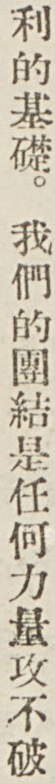利的基礎。我們的團結是任何力量攻不破
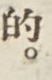的。
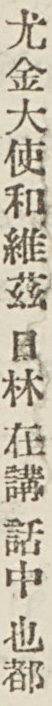尤金大使和維茲日林在講話中也都
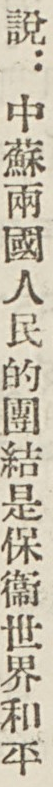說：中蘇兩國人民的團結是保衛世界和平
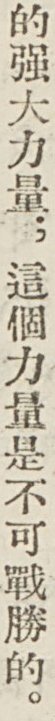的強大力量。這個力量是不可戰勝的。
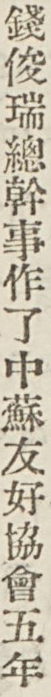錢俊瑞總幹事作了中蘇友好協會五年
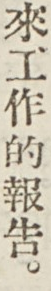來工作的報告。
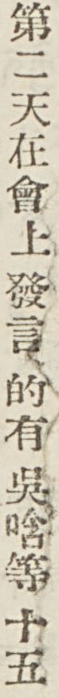第二天在會上發言的有吳晗等十五
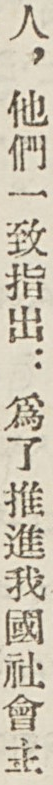人，他們一致指出：爲了推進我國社會主
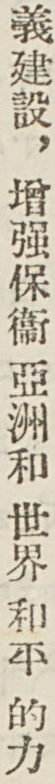義建設，增強保衛 亞洲和 世界 和平 的力
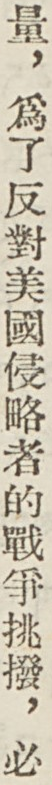量，爲了反對美國侵略者的戰爭挑撥，必
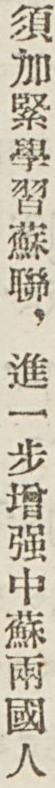須加緊學習蘇聯，進一步增強中蘇兩國人
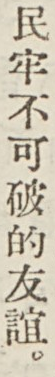民牢不可破的友誼。
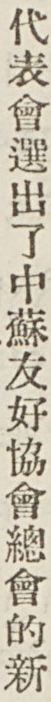代表會選出了中蘇友好協會總會的新
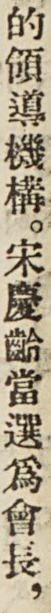的領導機構。宋慶齡當選爲會長，
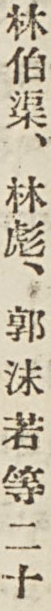林伯渠、林彪、郭沫若 等 二十
